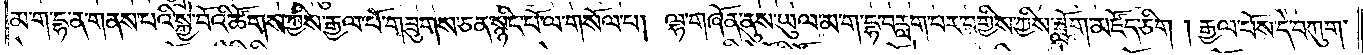མ་ག་དྷ་ན་གནས་པའི་སྐྱེ་བོའི་ཚོགས་ཀྱིས་རྒྱལ་པོ་གཟུགས་ཅན་སྙིང་པོ་ལ་གསོལ་པ། ལྷ་གཞོན་ནུས་ཡུལ་མ་ག་དྷ་བརླག་པར་བགྱིས་ཀྱིས་ཟློག་མཛོད་ཅིག །རྒྱལ་པོས་དེ་བཀུག་
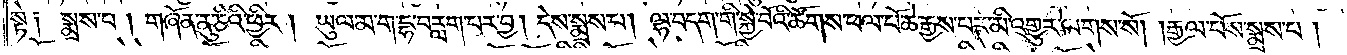སྟེ༑ སྨྲས་པ། གཞོན་ནུ་ཅིའི་ཕྱིར། ཡུལ་མ་ག་དྷ་བརླག་པར་བྱ། དེས་སྨྲས་པ། ལྷ་བདག་གི་སྐྱེ་བོའི་ཚོགས་ཕལ་པོ་ཆེ་རྒྱས་པར་མི་འགྱུར་ལགས་སོ། །རྒྱལ་པོས་སྨྲས་པ་།
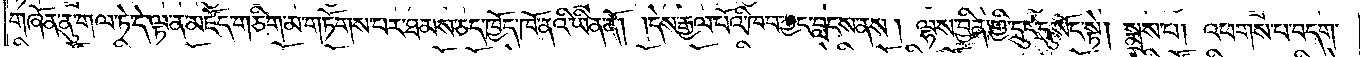གཞོན་ནུ་གལ་ཏེ་དེ་ལྟ་ན་མཛོད་གཅིག་མ་གཏོགས་པར་ཐམས་ཅད་ཁྱོད་ཁོ་ནའི་ཡིན་ནོ། །དེས་རྒྱལ་པོའི་ཁབ་ཀྱང་བླངས་ནས། ལྷས་བྱིན་གྱི་དྲུང་དུ་སོང་སྟེ། སྨྲས་པ། འཕགས་པ་བདག་
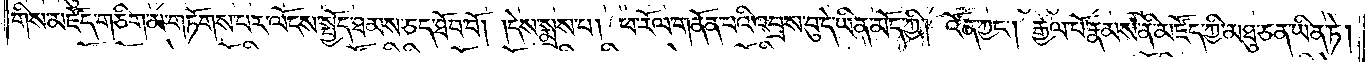གིས་མཛོད་གཅིག་མ་གཏོགས་པར་ལོངས་སྤྱོད་ཐམས་ཅད་ཐོབ་བོ། །དེས་སྨྲས་པ། ཕ་རོལ་གནོན་པའི་འབྲས་བུ་དེ་ཡིན་མོད་ཀྱི། འོན་ཀྱང༌། རྒྱལ་པོ་རྣམས་ནི་མཛོད་ཀྱི་མཐུ་ཅན་ཡིན་ཏེ།
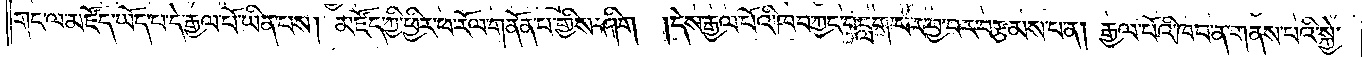གང་ལ་མཛོད་ཡོད་པ་དེ་རྒྱལ་པོ་ཡིན་པས། མཛོད་ཀྱི་ཕྱིར་ཕ་རོལ་གནོན་པ་གྱིས་ཤིག །དེས་རྒྱལ་པོའི་ཁབ་ཀྱང་བརླག་པར་བྱ་བར་བརྩམས་པ་ན། རྒྱལ་པོའི་ཁབ་ན་གནས་པའི་སྐྱེ་
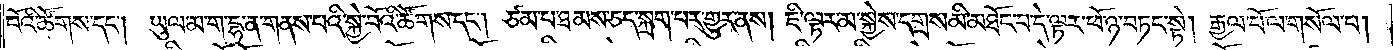བོའི་ཚོགས་དང༌། ཡུལ་མ་ག་དྷ་ན་གནས་པའི་སྐྱེ་བོའི་ཚོགས་དང༌། ཙམ་པ་ཐམས་ཅད་སྐྲག་པར་གྱུར་ནས། ཇི་ལྟར་མ་སྐྱེས་དགྲས་མི་མཐོང་བ་དེ་ལྟར་ཕོ་ཉ་བཏང་སྟེ། རྒྱལ་པོ་ལ་གསོལ་པ།
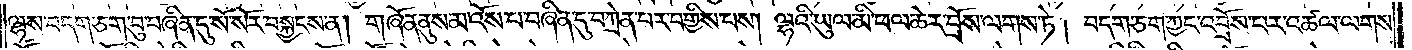ལྷས་བདག་ཅག་བུ་བཞིན་དུ་སོ་སོར་བསྐྱངས་ན། གཞོན་ནུས་མ་འོས་པ་བཞིན་དུ་བཀྲེན་པར་བགྱིས་པས། ལྷའི་ཡུལ་མི་ཕལ་ཆེར་བྲོས་ལགས་ཏེ། བདག་ཅག་ཀྱང་འབྲོས་པར་འཚལ་ལགས་
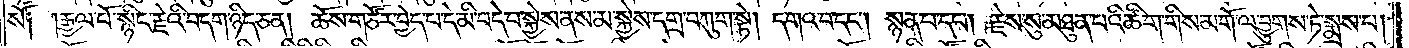སོ༑ །རྒྱལ་པོ་སྙིང་རྗེའི་བདག་ཉིད་ཅན། ཆོས་གཙོར་བྱེད་པ་དེ་མི་བདེ་བ་སྐྱེས་ནས་མ་སྐྱེས་དགྲ་བཀུག་སྟེ། དགའ་བ་དང༌། སྙན་པ་དང༌། རྗེས་སུ་མཐུན་པའི་ཚིག་གིས་མགོ་ལ་བྱུགས་ཏེ་སྨྲས་པ།
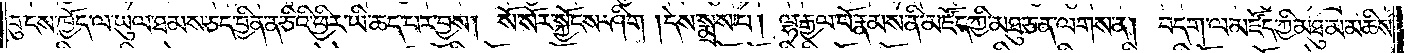བུ་ངས་ཁྱོད་ལ་ཡུལ་ཐམས་ཅད་བྱིན་ན་ཅིའི་ཕྱིར་ཡི་ཆད་པར་བྱས། སོ་སོར་སྐྱོངས་ཤིག །དེས་སྨྲས་པ། ལྷ་རྒྱལ་པོ་རྣམས་ནི་མཛོད་ཀྱི་མཐུ་ཅན་ལགས་ན། བདག་ལ་མཛོད་ཀྱི་མཐུ་མ་མཆིས་
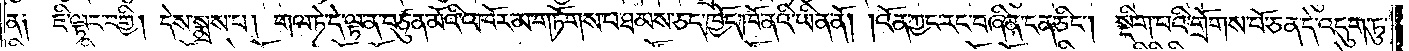ན༑ ཇི་ལྟར་བགྱི། དེས་སྨྲས་པ། གལ་ཏེ་དེ་ལྟ་ན་བཙུན་མོའི་འཁོར་མ་གཏོགས་པ་ཐམས་ཅད་ཁྱོད་ཁོ་ནའི་ཡིན་ནོ། །འོན་ཀྱང་རང་བཞིན་ངན་ཅིང༌། སྡིག་པའི་གྲོགས་པོ་ཅན་དེ་འདུག་ཏུ་
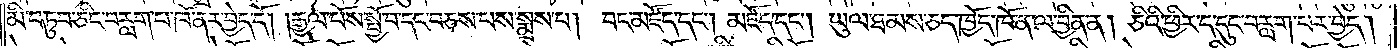མི་བཏུབ་ཅིང་བརླག་པ་ཁོ་ནར་བྱེད་དོ། །རྒྱལ་པོས་སྤྱོ་བ་དང་བཅས་པས་སྨྲས་པ། བང་མཛོད་དང༌། མཛོད་དང༌། ཡུལ་ཐམས་ཅད་ཁྱོད་ཁོ་ན་ལ་བྱིན་ན། ཅིའི་ཕྱིར་ད་དུང་བརླག་པར་བྱེད།
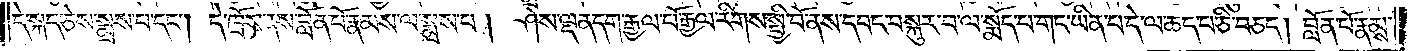དེ་སྐད་ཅེས་སྨྲས་པ་དང༌། དེ་ཁྲོས་ནས་བློན་པོ་རྣམས་ལ་སྨྲས་པ། ཤེས་ལྡན་དག་རྒྱལ་པོ་རྒྱལ་རིགས་སྤྱི་བོ་ནས་དབང་བསྐུར་བ་ལ་སྨོད་པ་གང་ཡིན་པ་དེ་ལ་ཆད་པ་ཅི་བཅད། བློན་པོ་རྣམས་
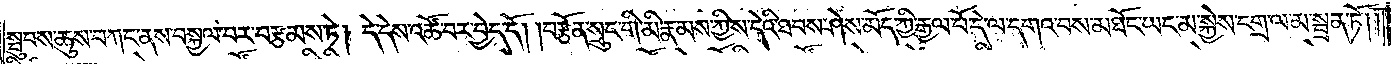སྦུབས་ཆུས་བཀང་ནས་བསྐྱལ་བར་བརྩམས་ཏེ། དེ་དེས་འཚོ་བར་བྱེད་དོ། །བརྩོན་སྲུང་གི་མི་རྣམས་ཀྱིས་དེའི་ཐབས་ཤེས་མོད་ཀྱི་རྒྱལ་པོ་དེ་ལ་དགའ་བས་མཐོང་ཡང་མ་སྐྱེས་དགྲ་ལ་མ་སྦྲན་ཏོ། །
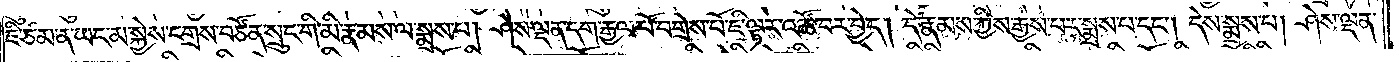ཇི་ཙམ་ན་ཡང་མ་སྐྱེས་དགྲས་བཙོན་སྲུང་གི་མི་རྣམས་ལ་སྨྲས་པ། ཤེས་ལྡན་དག་རྒྱལ་པོ་བགྲེས་པོ་ཇི་ལྟར་འཚོ་བར་བྱེད། དེ་རྣམས་ཀྱིས་རྒྱས་པར་སྨྲས་པ་དང༌། དེས་སྨྲས་པ། ཤེས་ལྡན་
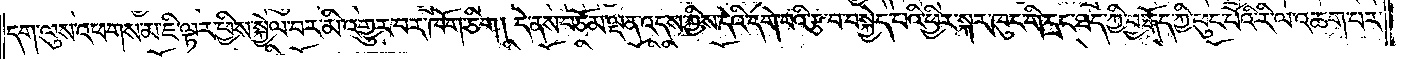དག་ལུས་འཕགས་མ་ཇི་ལྟར་ཕྱིས་སྐྱེལ་བར་མི་འགྱུར་བར་ཁོག་ཅིག། དེ་ནས་བཅོམ་ལྡན་འདས་ཀྱིས་དེའི་དགེ་བའི་རྩ་བ་བསྐྱེད་པའི་ཕྱིར་སྐར་ཁུང་གི་དྲང་ཐད་ཀྱི་བྱ་རྒོད་ཀྱི་ཕུང་པོའི་རི་ལ་འཆག་པར་
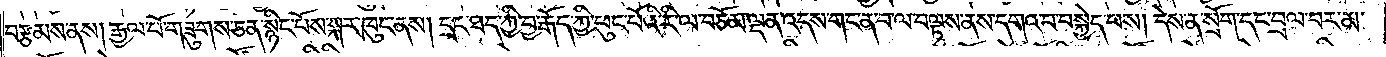བརྩམས་ནས། རྒྱལ་པོ་གཟུགས་ཅན་སྙིང་པོས་སྐར་ཁུང་ནས། དྲང་ཐད་ཀྱི་བྱ་རྒོད་ཀྱི་ཕུང་པོའི་རི་ལ་བཅོམ་ལྡན་འདས་གང་ན་བ་ལ་བལྟས་ནས་དགའ་བ་བསྐྱེད་པས། དེས་ན་སྲོག་དང་བྲལ་བར་མ་
